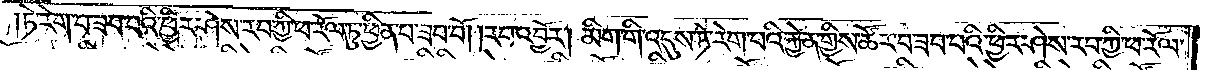ཏེ་རེག་པ་ཟབ་པའི་ཕྱིར་ཤེས་རབ་ཀྱི་ཕ་རོལ་ཏུ་ཕྱིན་པ་ཟབ་བོ། །རབ་འབྱོར། མིག་གི་འདུས་ཏེ་རེག་པའི་རྐྱེན་གྱིས་ཚོར་བ་ཟབ་པའི་ཕྱིར་ཤེས་རབ་ཀྱི་ཕ་རོལ་
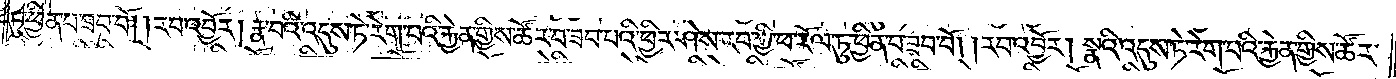ཏུ་ཕྱིན་པ་ཟབ་བོ། །རབ་འབྱོར། རྣ་བའི་འདུས་ཏེ་རེག་པའི་རྐྱེན་གྱིས་ཚོར་བ་ཟབ་པའི་ཕྱིར་ཤེས་རབ་ཀྱི་ཕ་རོལ་ཏུ་ཕྱིན་པ་ཟབ་བོ། །རབ་འབྱོར། སྣའི་འདུས་ཏེ་རེག་པའི་རྐྱེན་གྱིས་ཚོར་
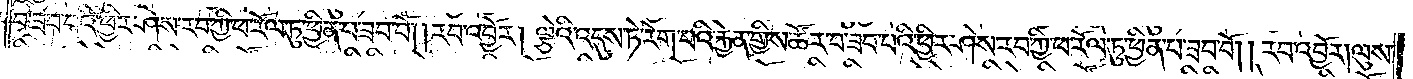བ་ཟབ་པའི་ཕྱིར་ཤེས་རབ་ཀྱི་ཕ་རོལ་ཏུ་ཕྱིན་པ་ཟབ་བོ། །རབ་འབྱོར། ལྕེའི་འདུ་ཏེ་རེག་པའི་རྐྱེན་གྱིས་ཚོར་བ་ཟབ་པའི་ཕྱིར་ཤེས་རབ་ཀྱི་ཕ་རོལ་ཏུ་ཕྱིན་པ་ཟབ་བོ། །རབ་འབྱོར། ལུས་
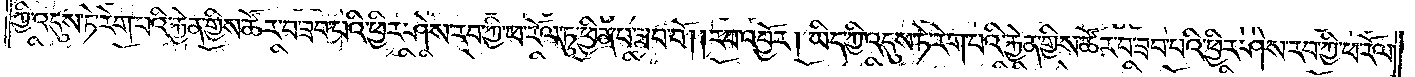ཀྱི་འདུས་ཏེ་རེག་པའི་རྐྱེན་གྱིས་ཚོར་བ་ཟབ་པའི་ཕྱིར་ཤེས་རབ་ཀྱི་ཕ་རོལ་ཏུ་ཕྱིན་པ་ཟབ་བོ། །རབ་འབྱོར། ཡིད་ཀྱི་འདུས་ཏེ་རེག་པའི་རྐྱེན་གྱིས་ཚོར་བ་ཟབ་པའི་ཕྱིར་ཤེས་རབ་ཀྱི་ཕ་རོལ་
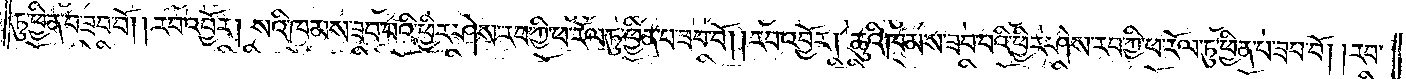ཏུ་ཕྱིན་པ་ཟབ་བོ། །རབ་འབྱོར། སའི་ཁམས་ཟབ་པའི་ཕྱིར་ཤེས་རབ་ཀྱི་ཕ་རོལ་ཏུ་ཕྱིན་པ་ཟབ་བོ། །རབ་འབྱོར། ཆུའི་ཁམས་ཟབ་པའི་ཕྱིར་ཤེས་རབ་ཀྱི་ཕ་རོལ་ཏུ་ཕྱིན་པ་ཟབ་བོ། །རབ་
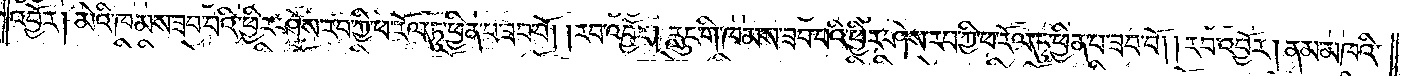འབྱོར། མེའི་ཁམས་ཟབ་པའི་ཕྱིར་ཤེས་རབ་ཀྱི་ཕ་རོལ་ཏུ་ཕྱིན་པ་ཟབ་བོ། །རབ་འབྱོར། རླུང་གི་ཁམས་ཟབ་པའི་ཕྱིར་ཤེས་རབ་ཀྱི་ཕ་རོལ་ཏུ་ཕྱིན་པ་ཟབ་བོ། །རབ་འབྱོར། ནམ་མཁའི་
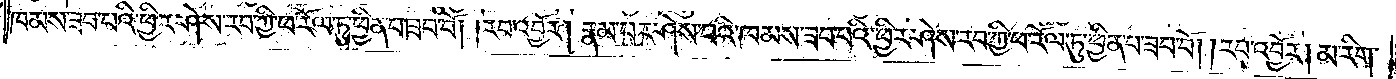ཁམས་ཟབ་པའི་ཕྱིར་ཤེས་རབ་ཀྱི་ཕ་རོལ་ཏུ་ཕྱིན་པ་ཟབ་བོ། །རབ་འབྱོར། རྣམ་པར་ཤེས་པའི་ཁམས་ཟབ་པའི་ཕྱིར་ཤེས་རབ་ཀྱི་ཕ་རོལ་ཏུ་ཕྱིན་པ་ཟབ་བོ། །རབ་འབྱོར། མ་རིག་
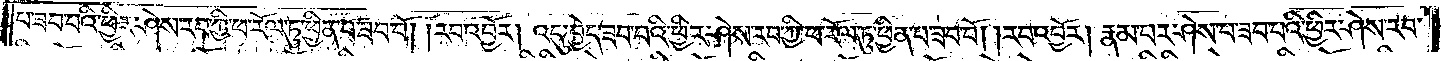པ་ཟབ་པའི་ཕྱིར་ཤེས་རབ་ཀྱི་ཕ་རོལ་ཏུ་ཕྱིན་པ་ཟབ་བོ། །རབ་འབྱོར། འདུ་བྱེད་ཟབ་པའི་ཕྱིར་ཤེས་རབ་ཀྱི་ཕ་རོལ་ཏུ་ཕྱིན་པ་ཟབ་བོ། །རབ་འབྱོར། རྣམ་པར་ཤེས་པ་ཟབ་པའི་ཕྱིར་ཤེས་རབ་
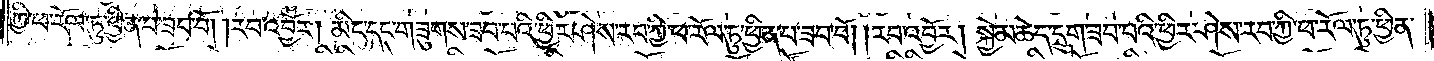ཀྱི་ཕ་རོལ་ཏུ་ཕྱིན་པ་ཟབ་བོ། །རབ་འབྱོར། མིང་དང་གཟུགས་ཟབ་པའི་ཕྱིར་ཤེས་རབ་ཀྱི་ཕ་རོལ་ཏུ་ཕྱིན་པ་ཟབ་བོ། །རབ་འབྱོར། སྐྱེ་མཆེད་དྲུག་ཟབ་པའི་ཕྱིར་ཤེས་རབ་ཀྱི་ཕ་རོལ་ཏུ་ཕྱིན་
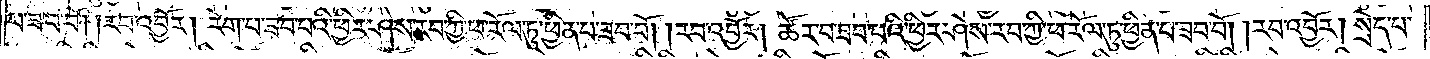པ་ཟབ་བོ། །རབ་འབྱོར། རེག་པ་ཟབ་པའི་ཕྱིར་ཤེས་རབ་ཀྱི་ཕ་རོལ་ཏུ་ཕྱིན་པ་ཟབ་བོ། །རབ་འབྱོར། ཚོར་བ་ཟབ་པའི་ཕྱིར་ཤེས་རབ་ཀྱི་ཕ་རོལ་ཏུ་ཕྱིན་པ་ཟབ་བོ། །རབ་འབྱོར། སྲེད་པ་
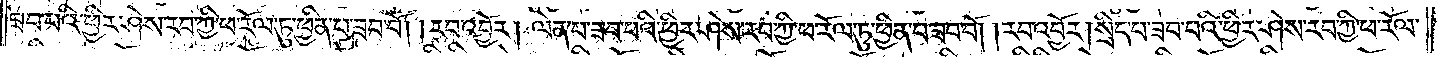ཟབ་པའི་ཕྱིར་ཤེས་རབ་ཀྱི་ཕ་རོལ་ཏུ་ཕྱིན་པ་ཟབ་བོ། །རབ་འབྱོར། ལེན་པ་ཟབ་པའི་ཕྱིར་ཤེས་རབ་ཀྱི་ཕ་རོལ་ཏུ་ཕྱིན་པ་ཟབ་བོ། །རབ་འབྱོར། སྲིད་པ་ཟབ་པའི་ཕྱིར་ཤེས་རབ་ཀྱི་ཕ་རོལ་
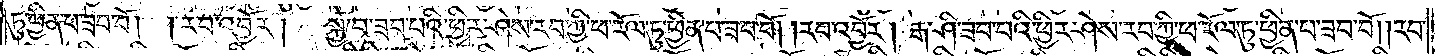ཏུ་ཕྱིན་པ་ཟབ་བོ། །རབ་འབྱོར། སྐྱེ་བ་ཟབ་པའི་ཕྱིར་ཤེས་རབ་ཀྱི་ཕ་རོལ་ཏུ་ཕྱིན་པ་ཟབ་བོ། །རབ་འབྱོར། རྒ་ཤི་ཟབ་པའི་ཕྱིར་ཤེས་རབ་ཀྱི་ཕ་རོལ་ཏུ་ཕྱིན་པ་ཟབ་བོ། །རབ་
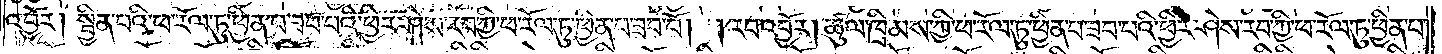འབྱོར། སྦྱིན་པའི་ཕ་རོལ་ཏུ་ཕྱིན་པ་ཟབ་པའི་ཕྱིར་ཤེས་རབ་ཀྱི་ཕ་རོལ་ཏུ་ཕྱིན་པ་ཟབ་བོ། །རབ་འབྱོར། ཚུལ་ཁྲིམས་ཀྱི་ཕ་རོལ་ཏུ་ཕྱིན་པ་ཟབ་པའི་ཕྱིར་ཤེས་རབ་ཀྱི་ཕ་རོལ་ཏུ་ཕྱིན་པ་
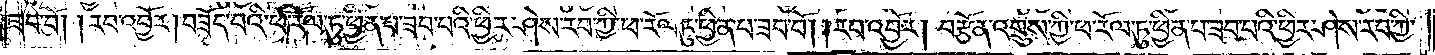ཟབ་བོ། །རབ་འབྱོར། བཟོད་པའི་ཕ་རོལ་ཏུ་ཕྱིན་པ་ཟབ་པའི་ཕྱིར་ཤེས་རབ་ཀྱི་ཕ་རོལ་ཏུ་ཕྱིན་པ་ཟབ་བོ། །རབ་འབྱོར། བརྩོན་འགྲུས་ཀྱི་ཕ་རོལ་ཏུ་ཕྱིན་པ་ཟབ་པའི་ཕྱིར་ཤེས་རབ་ཀྱི་
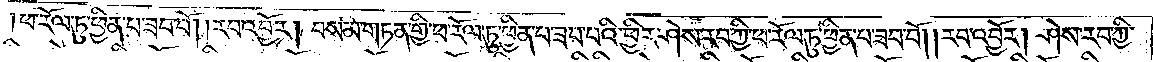ཕ་རོལ་ཏུ་ཕྱིན་པ་ཟབ་བོ། །རབ་འབྱོར། བསམ་གཏན་གྱི་ཕ་རོལ་ཏུ་ཕྱིན་པ་ཟབ་པའི་ཕྱིར་ཤེས་རབ་ཀྱི་ཕ་རོལ་ཏུ་ཕྱིན་པ་ཟབ་བོ། །རབ་འབྱོར། ཤེས་རབ་ཀྱི་
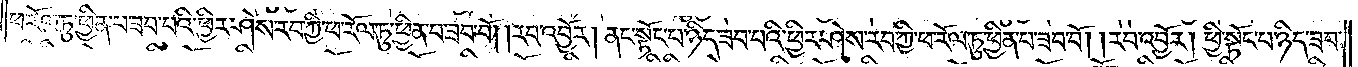ཕ་རོལ་ཏུ་ཕྱིན་པ་ཟབ་པའི་ཕྱིར་ཤེས་རབ་ཀྱི་ཕ་རོལ་ཏུ་ཕྱིན་པ་ཟབ་བོ། །རབ་འབྱོར། ནང་སྟོང་པ་ཉིད་ཟབ་པའི་ཕྱིར་ཤེས་རབ་ཀྱི་ཕ་རོལ་ཏུ་ཕྱིན་པ་ཟབ་བོ། །རབ་འབྱོར། ཕྱི་སྟོང་པ་ཉིད་ཟབ་
